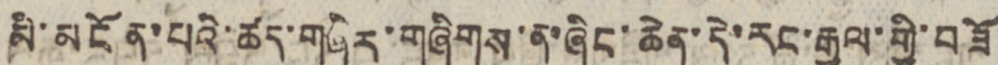མི་མངོན་པའི་ཚད་གཞིར་གཞིགས་ན་ཞིང་ཆེན་དེ་རང་རྒྱལ་གྱི་བཟོ
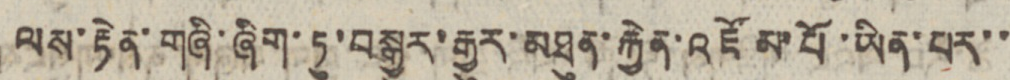ལས་རྟེན་གཞི་ཞིག་ཏུ་བསྒྱུར་རྒྱུར་མཐུན་རྐྱེན་འཛོམ་པོ་ཡིན་པར་་
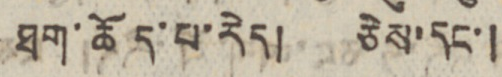ཐག་ཚོད་པ་རེད། ཅེས་དང་།
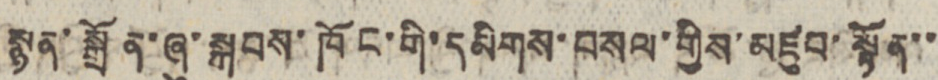སྙན་སྒྲོན་ཞུ་སྐབས་ཁོང་གི་དམིགས་བསལ་གྱིས་མཛུབ་སྟོན་་
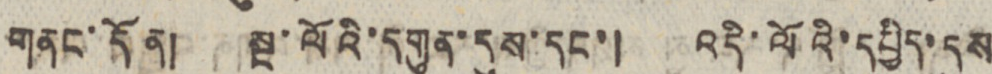གནང་དོན། སྔ་ལོའི་དགུན་དུས་དང་། འདི་ལོའི་དཔྱིད་དུས་
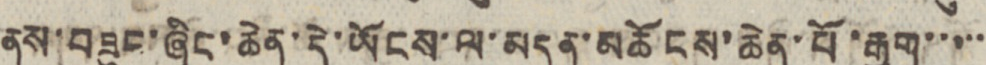ནས་བཟུང་ཞིང་ཆེན་དེ་ཡོངས་ལ་མདུན་མཆོངས་ཆེན་པོ་རྒྱག་་་་་་
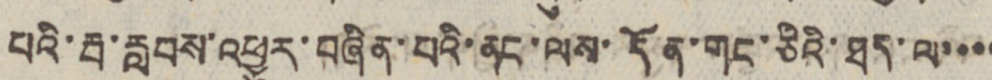པའི་རྦ་རླབས་འཕྱུར་བཞིན་པའི་ནང་ལས་དོན་གང་ཅིའི་ཐད་ལ་་་་
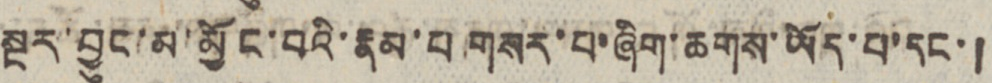སྔར་བྱུང་མ་མྱོང་བའི་རྣམ་པ གསར་པ་ཞིག་ཆགས་ཡོད་པ་དང་།
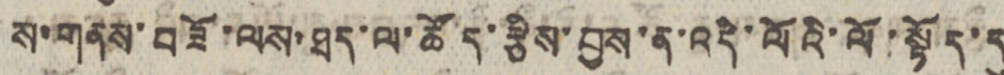ས་གནས་བཟོ་ལས་ཐད་ལ་ཚོད་རྩིས་བྱས་ན་འདི་ལོའི་ལོ་སྟོད་དུ
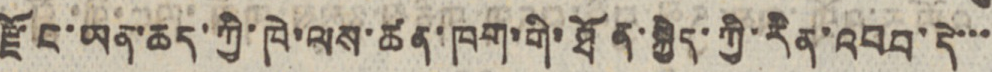རྫོང་ཡན་ཆད་ཀྱི་ཁེ་ལས་ཚན་ཁག་གི་ཐོན་སྐྱེད་ཀྱི་རིན་འབབ་དེ་་་
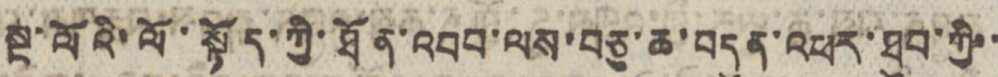སྔ་ལོའི་ལོ་སྟོད་ཀྱི་ཐོན་འབབ་ལས་བཅུ་ཆ་བདུན་འཕར་ཐུབ་ཀྱི་་
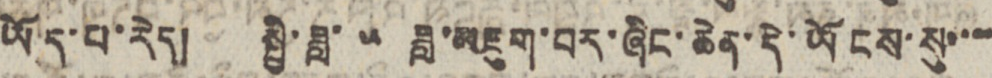ཡོད་པ་རེད། སྤྱི་ཟླ་ ༥ ཟླ་མཇུག་པར་ཞིང་ཆེན་དེ་ཡོངས་སུ་་་་
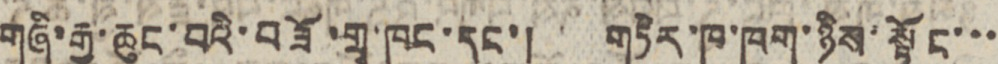གཞི་རྒྱ་ཆུང་བའི་བཟོ་གྲྭ་ཁང་དང་། གཏེར་ཁ་ཁག་ཉིས་སྟོང་་་
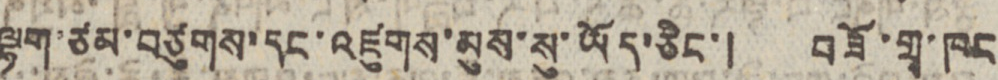ལྷག་ཙམ་བཙུགས་དང་འཛུགས་མུས་སུ་ཡོད་ཅིང་། བཟོ་གྲྭ་ཁང
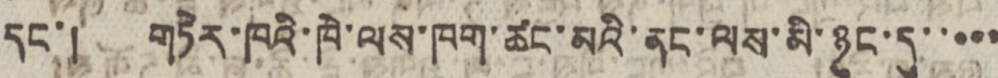དང་། གཏེར་ཁའི་ཁེ་ལས་ཁག་ཚང་མའི་ནང་ལས་མི་ཉུང་དུ་་་་་
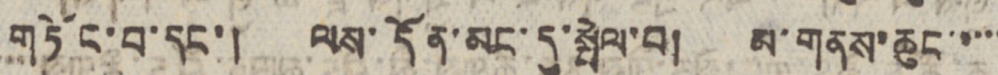གཏོང་བ་དང་། ལས་དོན་མང་དུ་སྤེལ་བ། མ་གནས་ཆུང་་་་་
